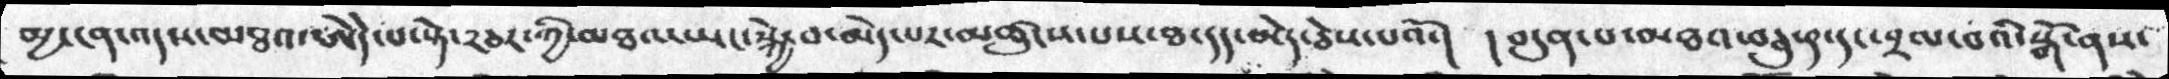མྱ་ངན་འདས་མཐའ་ཨེདེ་པ་སྟེ་༢ཅར་ཀྱི་མཐའ་ཡང་སྐྱེ་བ་མེད་པར་མཚུངས་པས་ཐ་དད་མེད་ཅེས་པའོ་།  །བདུན་པ་མཐའ་བཅུ་༩་དང་བྲལ་བའི་སྒོ་ནས་
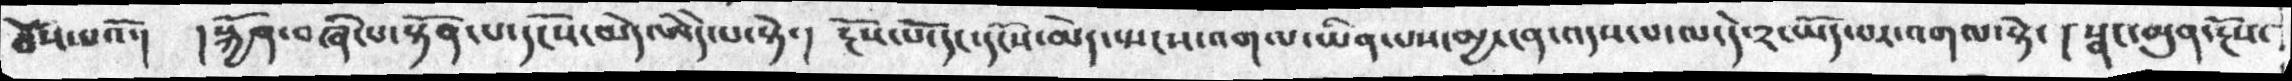ཅེས་པའོ་།  །སྐྱོན་བཞི་པ་སྟོན་པ་དངོས་མེད་ཨེདེ་པ་སྟེ་། རྔོས་པོ་དང་དངོས་མེད་སྤངས་འགལ་ཡིན་པས་མྱ་ངན་འདས་པ་ལ་དེ་༢་ཡོད་པར་འགལ་སྟེ་། སྣང་མུན་རྔོས་
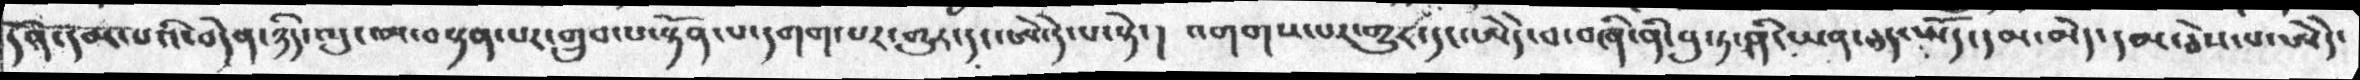དོན་དམ་པའི་བདེན་ཉིད་འདུ་མ་བསྟན་པར་གྲུབ་པ་སྟོན་པ་དགག་པར་གྱུར་དང་ཨེ་དེ་པ་སྟེ་། འགགས་པར་གྱུར་དང་ཨེདེ་པ་བཞི་ནི་བུ་ཏ་ཤི་ཡན་ཅད་ཡོད་དམ་མེད་དམ་ཅེས་པ་ཨེདེ་
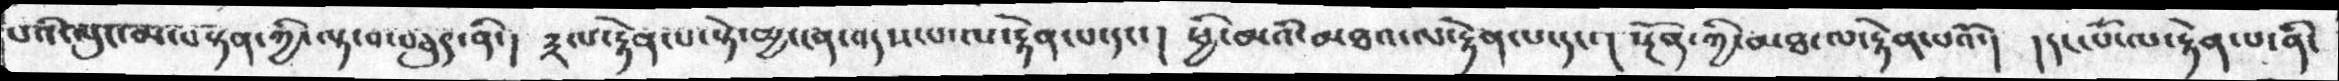པའི་ལུང་མ་བསྟན་ཀྱི་ལྟ་བ་བཅུད་ནི་།  ༣ལ་རྟེན་པ་སྟེ་མྱ་ངན་འདས་པ་ལ་རྟེན་པ་དང་།  ཕྱི་མའི་མཐའ་ལ་རྟེན་པ་དང་། སྔོན་ཀྱི་མཐ་ལ་རྟེན་པའོ་། །དང་པོ་ལ་རྟེན་པ་ནི་
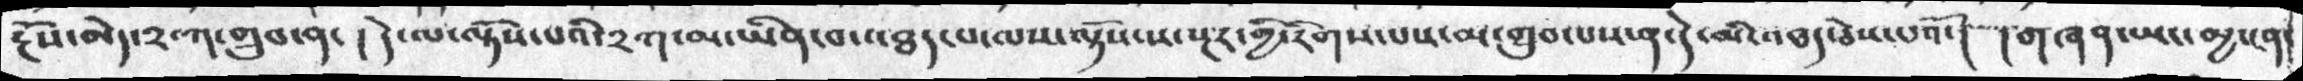རྔོས་མེད་༢་ཀ་གྲུབ་བ་། དེ་ལ་ལྟོས་པའི་༢ཀ་མ་ཡིན་པ་འཐད་པ་ལས་ལྟོས་ས་སྔར་གྱི་རིགས་པས་མ་གྲུབ་པས་ན་དེ་མི་འཐད་ཅེས་པའོ་།  །གཞན་ཡང་མྱ་ངན་
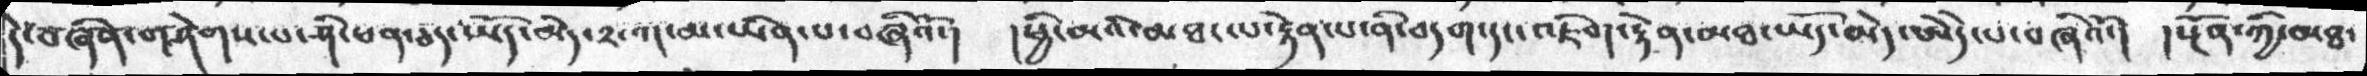དེ་བཞིན་གཤེགས་པ་ཤི་ཕན་ཅད་ཡོད་མེད་༢་ཀ་མ་ཡིན་བཞིའོ་།  །ཕྱི་མའི་མཐ་ལ་རྟེན་པ་ནི་བདག་དང་འཇིག་རྟེན་མཐ་ཡོད་མེད་ཨེདེ་པ་བཞིའོ་། །སྔོན་ཀྱི་མཐ་
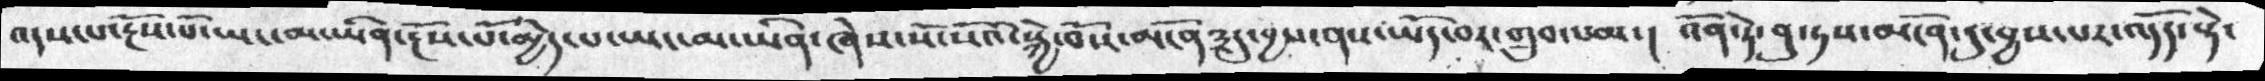འདས་པ་རྔོས་པོ་ཡང་མ་ཡིན་རྔོས་པོ་མྱེད་པ་ཡང་མ་ཡིན་ཞེས་སོ་སོའི་སྐྱེ་བོས་མངོན༣དུ་བྱས་ནས་ཡོད་བར་གྲུབ་སམ་། འོན་ཏེ་བུ་ཏས་མངོན་དུ་བྱས་པར་འདོད་སྟེ་
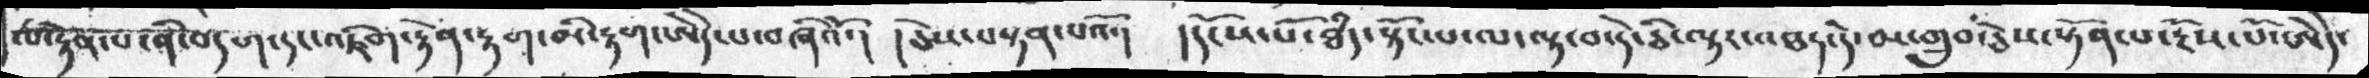ལ་རྟེན་པ་ནི་བདག་དང་འཇིག་རྟེན་རྟག་མི་རྟག་ཨེདེ་པ་བཞིའོ་།  །ཅེས་བསྟན་པའོ་། འདངོས་པོ་ཐཾད་སྟོང་པ་ལ་ལྟ་བ་དེ་ཅི་ལྟར་འཐད་དེ་མ་གྲུབ་ཅེས་སྟོན་པ་རྔོས་པོ་ཨེདེ་
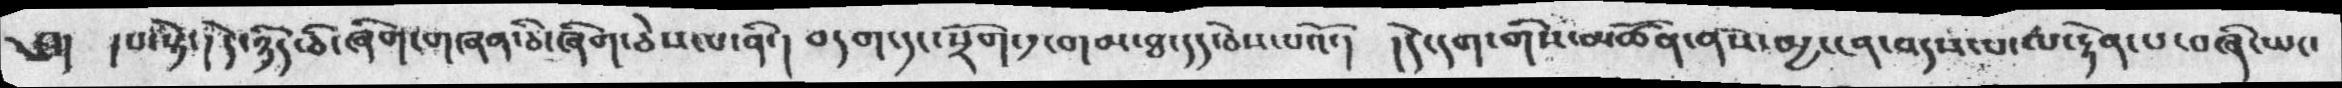༅།  །པ་སྟེ་། དེ་ཉིད་ཅི་ཞིག་གཞན་ཅི་ཞིག་ཅེས་པ་ནི་། བདག་དང་སྲོག་༡་གམ་ཐ་དད་ཅེས་པའོ་། དེ་དག་གིས་མཚོན་ནས་མྱ་ངན་འདས་པ་ལ་རྟེན་པ་བཞི་ཡང་
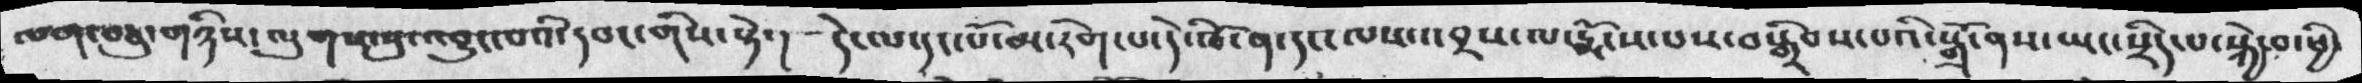ལག་བཅུ་གཉིས་ལུགས་སུ་འབྱུང་པའི་དབང་གིས་སྟེ་། དེ་ལ་དང་པོ་མ་རིག་པ་དེ་ཁོ་ན་དང་ལས་འབྲས་ལ་རྨོངས་པས་བསྒྲིབས་པའི་སྒོ་ནས་ཡང་སྲིད་པ་སྐྱེ་བ་ཕྱི་
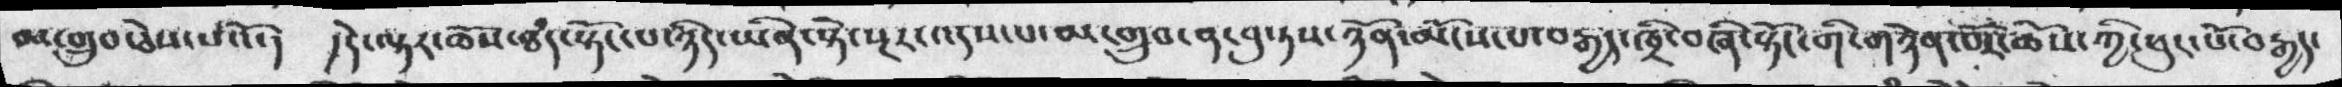མ་གྲུབ་ཅེས་པའོ་།  །དེ་ལྟར་ཆོས་ཐཾད་སྟོང་པ་ཉིད་ཡིན་སྟེ་སྔར་འདས་པ་མ་གྲུབ་ན་བུ་ཏས་ཉོན་མོངས་པ་བརྒྱད་ཁྲི་བཞི་སྟོང་གི་གཉེན་པོར་ཆོས་ཀྱི་ཕུང་པོ་བརྒྱད་
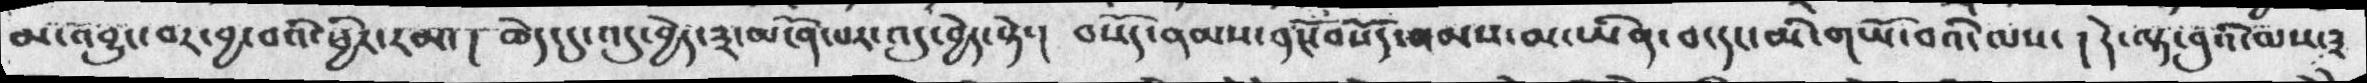མ་འབྱུང་བར་བྱ་བའི་ཕྱིར་རམ་། ཆེད་དུ་འདུ་བྱེད་༣་མངོན་པར་འདུ་བྱེད་སྟེ་།  བསོད་ནམས་དངོས་བསོད་ནམས་མ་ཡིན་བ་དང་མི་གཡོ་བའི་ལས་། དེ་ལྟ་བུའི་ལས་༣
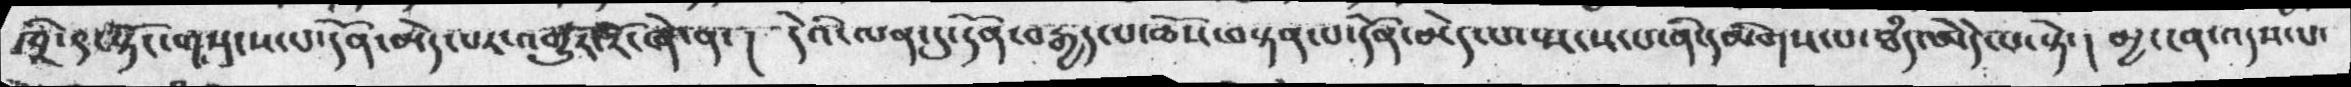ཁྲི་དང་སྟོང་གསུངས་པ་དོན་མེད་པར་འགྱུར་རོ་ཞེ་ན་།  དེའི་ལན་དུ་དོན་བརྒྱད་པ་ཆོས་བསྟན་པ་དོན་མེད་པ་སྤངས་པ་ནི་དམིགས་པ་ཐཾད་ཨེདེ་པ་སྟེ་། མྱ་ངན་འདས་པ་
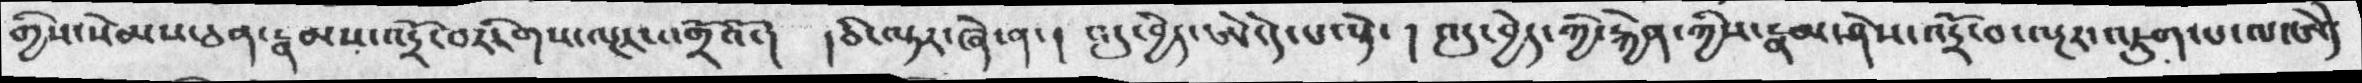གྱིས་སེམས་ཅན་རྣམས་འདྲོ་བ་རིགས་ལྔར་འགྲོའོ་།  །ཅི་ལྟར་ཞེ་ན་།  འདུ་བྱེད་ཨེ་དེ་པ་སྟེ་། འདུ་བྱེད་ཀྱི་རྐྱེན་ཀྱིས་རྣམ་ཤེས་འདྲོ་བ་ལྔར་འཇུག་པ་ལ་ཨེདེ
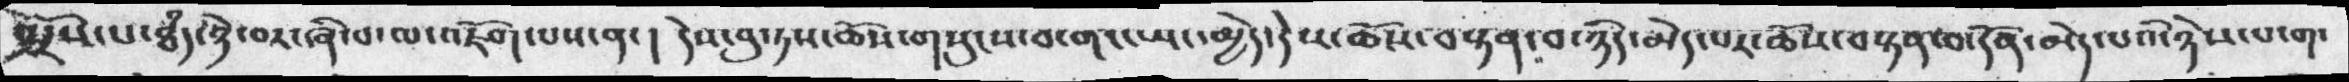སྤྲོས་པ་ཐཾད་ཉེ་བར་ཞི་བ་ལ་འཇོག་པས་ན་། དེས་བུ་ཏས་ཆོས་གསུངས་བ་གང་ཡས་མྱེད་དེས་ཆོས་བསྟན་བ་ཉིད་མེད་པར་ཆོས་བསྟན་བ་དོན་མེད་པའི་ཉེས་པ་ག་
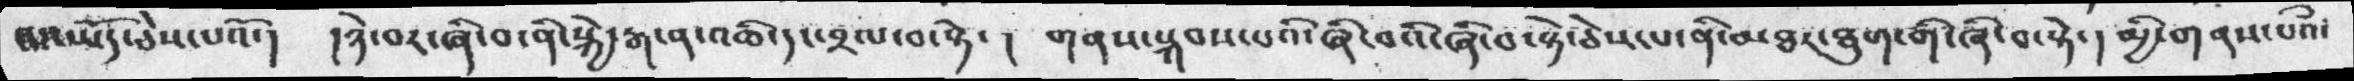པ་ཡོད་ཅེས་པའོ་།  །ཉེ་བར་ཞི་བ་ནི་སྐྱེ་རྒ་ན་འཆི་དང་བྲལ་བ་སྟེ་།  གནས་སྐབས་པའི་ཞི་བ་སྟེ་ཅེས་པ་ནི་མཐར་ཐུག་གི་ཞི་བ་སྟེ་། མྱི་གནས་པའྀ་
